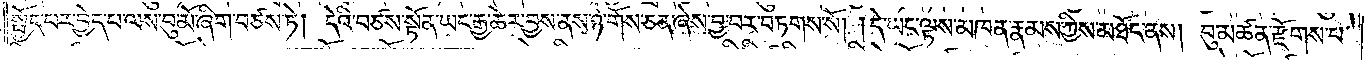སྤྱོད་པར་བྱེད་པ་ལས་བུ་མོ་ཞིག་བཙས་ཏེ། དེའི་བཙས་སྟོན་ཡང་རྒྱ་ཆེར་བྱས་ནས་ཉེ་གོས་ཅན་ཞེས་བྱ་བར་བཏགས་སོ། །དེ་ཡང་ལྟས་མཁན་རྣམས་ཀྱིས་མཐོང་ནས། བུ་མཚན་རྫོགས་པ་
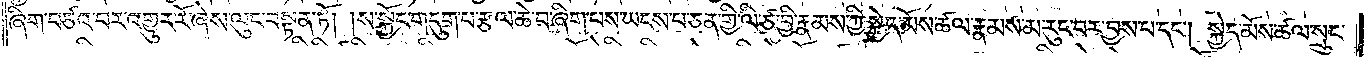ཞིག་བཙའ་བར་འགྱུར་རོ་ཞེས་ལུང་བསྟན་ཏོ། །ས་སྐྱོང་གདུག་པ་རྩལ་ཆེ་བ་ཞིག་པས་ཡངས་པ་ཅན་གྱི་ལི་ཙ་བྱི་རྣམས་ཀྱི་སྐྱེད་མོས་ཚལ་རྣམས་མ་རུང་བར་བྱས་པ་དང༌། སྐྱེད་མོས་ཚལ་སྲུང་
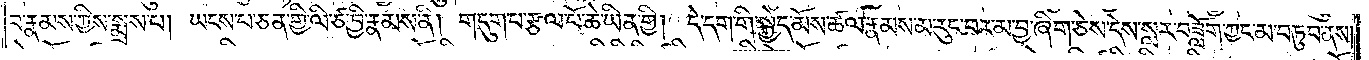བ་རྣམས་ཀྱིས་སྨྲས་པ། ཡངས་པ་ཅན་གྱི་ལི་ཙ་བྱི་རྣམས་ནི། གདུག་པ་རྩལ་པོ་ཆེ་ཡིན་གྱི། དེ་དག་གི་སྐྱེད་མོས་ཚལ་རྣམས་མ་རུང་བར་མ་བྱ་ཞིག་ཅེས་དེས་སླར་བཟློག་ཀྱང་མ་བཏུབ་ནས།
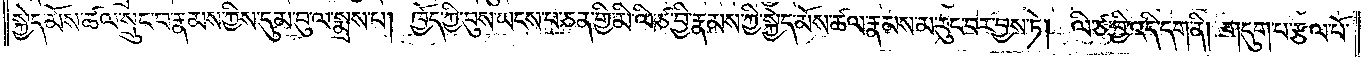སྐྱེད་མོས་ཚལ་སྲུང་བ་རྣམས་ཀྱིས་དུམ་བུ་ལ་སྨྲས་པ། ཁྱོད་ཀྱི་བུས་ཡངས་པ་ཅན་གྱི་མི་ལི་ཙ་བྱི་རྣམས་ཀྱི་སྐྱེད་མོས་ཚལ་རྣམས་མ་རུང་བར་བྱས་ཏེ། ལི་ཙ་བྱི་འདི་དག་ནི། གདུག་པ་རྩལ་པོ་
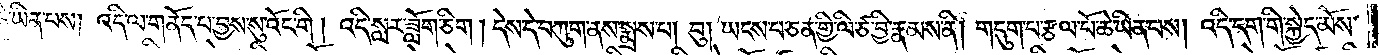ཆེ་ཡིན་པས། འདི་ལ་གནོད་པ་བྱས་སུ་འོང་གི། འདི་སླར་ཟློག་ཅིག །དེས་དེ་བཀུག་ནས་སྨྲས་པ། བུ། ཡངས་པ་ཅན་གྱི་ལི་ཙ་བྱི་རྣམས་ནི། གདུག་པ་རྩལ་པོ་ཆེ་ཡིན་པས། འདི་དག་གི་སྐྱེད་མོས་
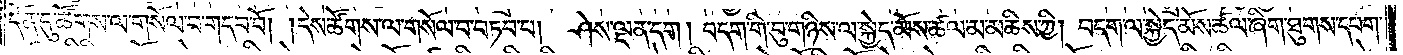དོན་དུ་ཚོགས་ལ་གསོལ་བ་གདབ་བོ། །དེས་ཚོགས་ལ་གསོལ་བ་བཏབ་པ། ཤེས་ལྡན་དག །བདག་གི་བུ་གཉིས་ལ་སྐྱེད་མོས་ཚལ་མ་མཆིས་ཀྱི། བདག་ལ་སྐྱེད་མོས་ཚལ་ཞིག་ཐུགས་དཔག་
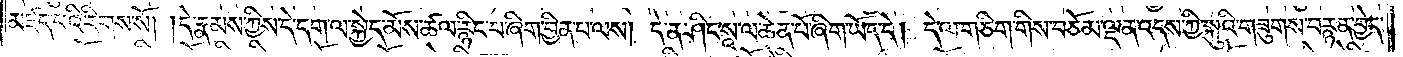མཛད་པའི་རིགས་སོ། །དེ་རྣམས་ཀྱིས་དེ་དག་ལ་སྐྱེད་མོས་ཚལ་རྙིང་པ་ཞིག་བྱིན་པ་ལས། དེ་ན་ཤིང་སཱ་ལ་ཆེན་པོ་ཞིག་ཡོད་དེ། དེ་ལ་གཅིག་གིས་བཅོམ་ལྡན་འདས་ཀྱི་སྐུའི་གཟུགས་བརྙན་བྱེད་
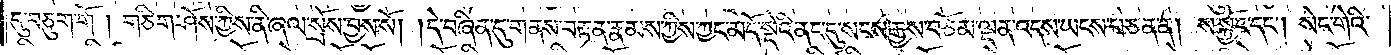དུ་བཅུག་གོ །གཅིག་ཤོས་ཀྱིས་ནི་ཞལ་སྲོས་བྱས་སོ། །དེ་བཞིན་དུ་གནས་བརྟན་རྣམས་ཀྱིས་ཀྱང་མདོ་སྡེའི་ནང་དུ་སངས་རྒྱས་བཅོམ་ལྡན་འདས་ཡངས་པ་ཅན་ན། ས་སྐྱོང་དང༌། སེང་གེའི་
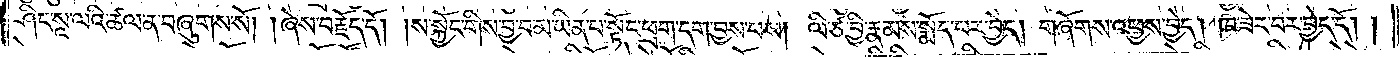ཤིང་སཱ་ལའི་ཚལ་ན་བཞུགས་སོ། །ཞེས་བརྗོད་དོ། །ས་སྐྱོང་གིས་བྱ་བ་མ་ཡིན་པ་སྟོང་ཕྲག་དག་བྱས་པས། ལི་ཙ་བྱི་རྣམས་སྨོད་པར་བྱེད། གཞོགས་འཕྱས་བྱེད། ཁ་ཟེར་བར་བྱེད་དོ། །
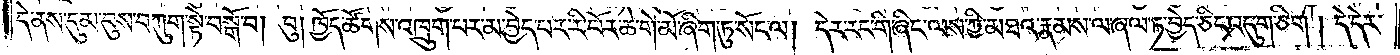དེ་ནས་དུམ་བུས་བཀུག་སྟེ་བསྒོ་བ། བུ། ཁྱོད་ཚོགས་འཁྲུག་པར་མ་བྱེད་པར་རི་བོར་ཆེ་གེ་མོ་ཞིག་ཏུ་སོང་ལ། དེར་རང་གི་ཞིང་ལས་ཀྱི་མཐའ་རྣམས་ལ་ཞལ་ཏ་བྱེད་ཅིང་འདུག་ཅིག །དེ་དེར་
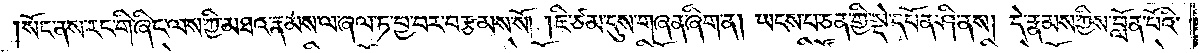སོང་ནས་རང་གི་ཞིང་ལས་ཀྱི་མཐའ་རྣམས་ལ་ཞལ་ཏ་བྱ་བར་བརྩམས་སོ། །ཇི་ཙམ་དུས་གཞན་ཞིག་ན། ཡངས་པ་ཅན་གྱི་སྡེ་དཔོན་ཤི་ནས། དེ་རྣམས་ཀྱིས་བློན་པོའི་
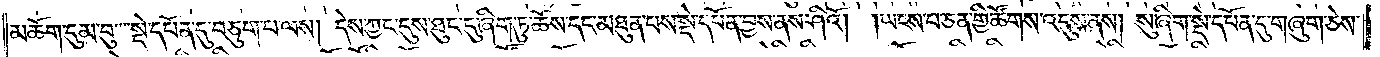མཆོག་དུམ་བུ་སྡེ་དཔོན་དུ་བཅུག་པ་ལས། དེས་ཀྱང་དུས་ཐུང་དུ་ཞིག་ཏུ་ཆོས་དང་མཐུན་བས་སྡེ་དཔོན་བྱས་ནས་ཤིའོ། །ཡངས་པ་ཅན་གྱི་ཚོགས་འདུས་ནས། སུ་ཞིག་སྡེ་དཔོན་དུ་གཞུག་ཅེས་
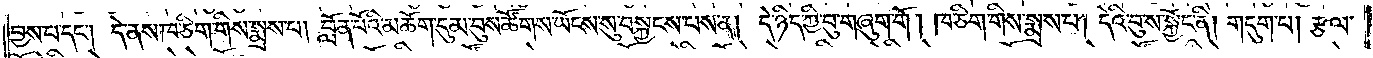བྱས་པ་དང༌། དེ་ནས་ཁ་ཅིག་གིས་སྨྲས་པ། བློན་པོའི་མཆོག་དུམ་བུས་ཚོགས་ཡོངས་སུ་བསྐྱངས་པས་ན། དེ་ཉིད་ཀྱི་བུ་གཞུག་གོ །ཁ་ཅིག་གིས་སྨྲས་པ། དེའི་བུ་ས་སྐྱོང་ནི། གདུག་པ། རྩལ་
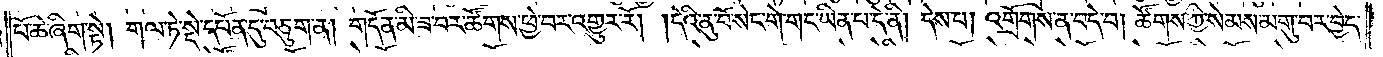པོ་ཆེ་ཞིག་སྟེ། གལ་ཏེ་སྡེ་དཔོན་དུ་བཅུག་ན། གདོན་མི་ཟ་བར་ཚོགས་ཕྱེ་བར་འགྱུར་རོ། །དེའི་ནུ་བོ་སེང་གེ་གང་ཡིན་པ་དེ་ནི། དེས་པ། འགྲོགས་ན་བདེ་བ། ཚོགས་ཀྱི་སེམས་མགུ་བར་བྱེད་
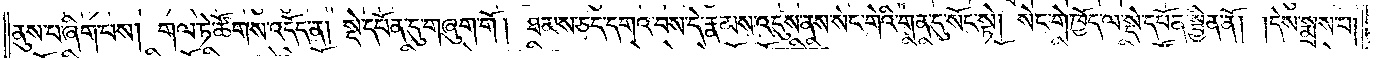ནུས་པ་ཞིག་པས། གལ་ཏེ་ཚོགས་འདོད་ན། སྡེ་དཔོན་དུ་གཞུག་གོ །ཐམས་ཅད་དགའ་བས་དེ་རྣམས་འདུས་ནས་སེང་གེའི་གན་དུ་སོང་སྟེ། སེང་གེ་ཁྱོད་ལ་སྡེ་དཔོན་སྦྱིན་ནོ། །དེས་སྨྲས་པ།
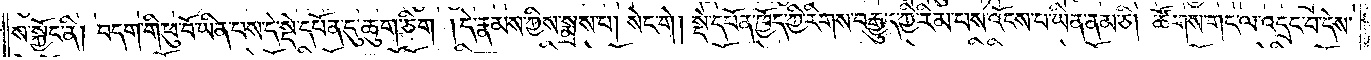ས་སྐྱོང་ནི། བདག་གི་ཕུ་བོ་ཡིན་པས་དེ་སྡེ་དཔོན་དུ་ཆུག་ཅིག །དེ་རྣམས་ཀྱིས་སྨྲས་པ། སེང་གེ། སྡེ་དཔོན་ཁྱོད་ཀྱི་རིགས་བརྒྱུད་ཀྱི་རིམ་པས་འོངས་པ་ཡིན་ནམ་ཅི། ཚོགས་གང་ལ་འདྲང་བ་དེས་
